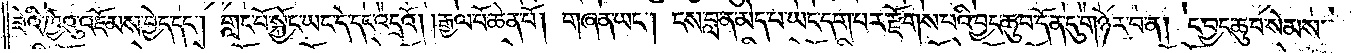ཟེའི་ཁྱེའུ་འཇོམས་བྱེད་དང༌། གླང་པོ་སྐྱོང་ཡང་དེ་དང་འདྲའོ། །རྒྱལ་པོ་ཆེན་པོ། གཞན་ཡང༌། ངས་བླ་ན་མེད་པ་ཡང་དག་པར་རྫོགས་པའི་བྱང་ཆུབ་དོན་དུ་གཉེར་བ་ན། ང་བྱང་ཆུབ་སེམས་
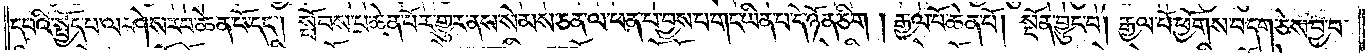དཔའི་སྤྱོད་པ་ལ་ཤེས་རབ་ཆེན་པོ་དང༌། སྤོབས་པ་ཆེན་པོར་གྱུར་ནས་སེམས་ཅན་ལ་ཕན་པ་བྱས་པ་གང་ཡིན་པ་དེ་ཉོན་ཅིག། རྒྱལ་པོ་ཆེན་པོ། སྔོན་བྱུང་བ། རྒྱལ་པོ་ཕྱོགས་བདག་ཅེས་བྱ་བ་
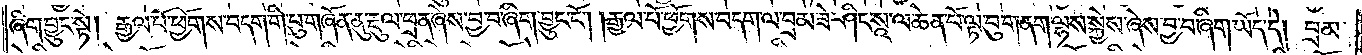ཞིག་བྱུང་སྟེ། རྒྱལ་པོ་ཕྱོགས་བདག་གི་པུ་གཞོན་ནུ་རྡུལ་ཕྲན་ཞེས་བྱ་བ་ཞིག་བྱུང་ངོ༌། །རྒྱལ་པོ་ཕྱོགས་བདག་ལ་བྲམ་ཟེ་ཤིང་སཱ་ལ་ཆེན་པོ་ལྟ་བུ་གནག་ལྷས་སྐྱེས་ཞེས་བྱ་བ་ཞིག་ཡོད་དེ། བྲམ་
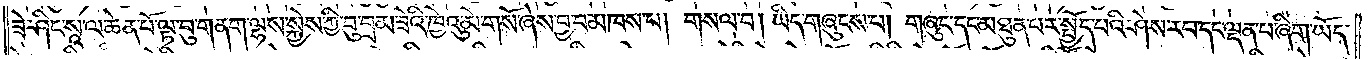ཟེ་ཤིང་སཱ་ལ་ཆེན་པོ་ལྟ་བུ་གནག་ལྷས་སྐྱེས་ཀྱི་བུ་བྲམ་ཟེའི་ཁྱེའུ་མེ་གསོ་ཞེས་བྱ་བ་མཁས་པ། གསལ་བ། ཡིད་གཞུངས་པ། གཞུང་དང་མཐུན་པར་སྤྱོད་པའི་ཤེས་རབ་དང་ལྡན་པ་ཞིག་ཡོད་
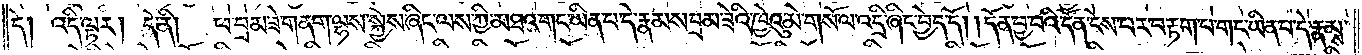དེ། འདི་ལྟར། དེ་ནི།  ཕ་བྲམ་ཟེ་གནག་ལྷས་སྐྱེས་ཞིང་ལས་ཀྱི་མཐའ་གང་ཡིན་པ་དེ་རྣམས་བྲམ་ཟེའི་ཁྱེའུ་མེ་གསོལ་འདྲི་ཞིང་བྱེད་དོ། །དོན་བྱ་བའི་དོན་ངེས་པར་བརྟག་པ་གང་ཡིན་པ་དེ་རྣམས་
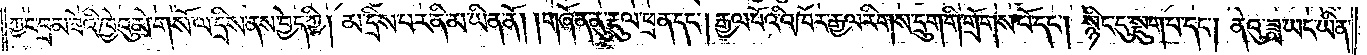ཀྱང་བྲམ་ཟེའི་ཁྱེའུ་མེ་གསོ་ལ་དྲིས་ནས་བྱེད་ཀྱི། མ་དྲིས་པར་ནི་མ་ཡིན་ནོ། །གཞོན་ནུ་རྡུལ་ཕྲན་དང༌། རྒྱལ་པོའི་འཁོར་རྒྱལ་རིགས་དྲུག་གི་གྲོངས་པོ་དང༌། སྙིང་དུ་སྡུག་པ་དང༌། ནེའུ་ཟླ་ཡང་ཡིན་
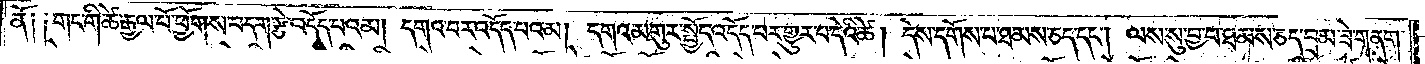ནོ༑ ༑གང་གི་ཚེ་རྒྱལ་པོ་ཕྱོགས་བདག་རྩེ་འདོད་པའམ། དགའ་བར་འདོད་པའམ། དགའ་མགུར་སྤྱོད་འདོད་པར་གྱུར་པ་དེའི་ཚེ། དེས་དགོས་པ་ཐམས་ཅད་དང༌། ལས་སུ་བྱ་བ་ཐམས་ཅད་བྲམ་ཟེ་གནག་
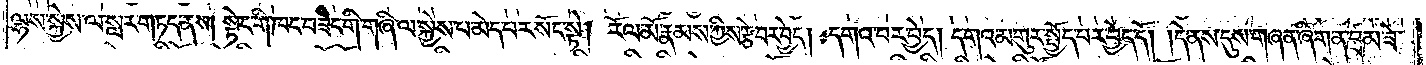ལྷས་སྐྱེས་ལ་སླར་གཏད་ནས། སྟེང་གི་ཁང་བཟང་གི་གཞི་ལ་སྐྱེས་པ་མེད་པར་སོང་སྟེ། རོལ་མོ་རྣམས་ཀྱིས་རྩེ་བར་བྱེད། དགའ་བར་བྱེད། དགའ་མགུར་སྤྱོད་པར་བྱེད་དོ། །དེ་ནས་དུས་གཞན་ཞིག་ན་བྲམ་ཟེ་
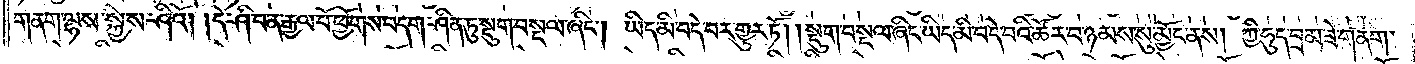གནག་ལྷས་སྐྱེས་ཤིའོ། །དེ་ཤི་བ་ན་རྒྱལ་པོ་ཕྱོགས་བདག་ཤིན་ཏུ་སྡུག་བསྔལ་ཞིང༌། ཡིད་མི་བདེ་བར་གྱུར་ཏོ། །སྡུག་བསྔལ་ཞིང་ཡིད་མི་བདེ་བའི་ཚོར་བ་ཉམས་སུ་མྱོང་ནས། ཀྱི་ཧུད་བྲམ་ཟེ་གནག་
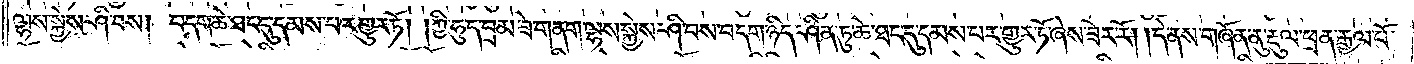ལྷས་སྐྱེས་ཤི་བས། བདག་ཆེ་ཐང་དུ་དམས་པར་གྱུར་ཏོ། །ཀྱི་ཧུད་བྲམ་ཟེ་གནག་ལྷས་སྐྱེས་ཤི་བས་བདག་ཉིད་ཤིན་ཏུ་ཆེ་ཐང་དུ་དམས་པར་གྱུར་ཏོ་ཞེས་ཟེར་རོ། །དེ་ནས་གཞོན་ནུ་རྡུལ་ཕྲན་རྒྱལ་པོ་
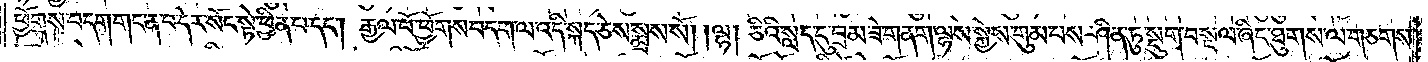ཕྱོགས་བདག་གང་ན་དེར་སོང་སྟེ་ཕྱིན་པ་དང༌། རྒྱལ་པོ་ཕྱོགས་བདག་ལ་འདི་སྐད་ཅེས་སྨྲས་སོ། །ལྷ། ཅིའི་སླད་དུ་བྲམ་ཟེ་གནག་ལྷས་སྐྱེས་གུམ་པས་ཤིན་ཏུ་སྡུག་བསྔལ་ཞིང་ཐུགས་ལ་གཅགས་
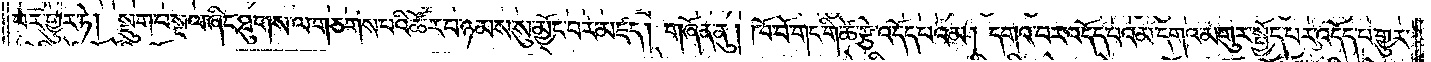པར་གྱུར་ཏེ། སྡུག་བསྔལ་ཞིང་ཐུགས་ལ་གཅགས་པའི་ཚོར་བ་ཉམས་སུ་མྱོང་བར་མཛད། གཞོན་ནུ། ཁོ་བོ་གང་གི་ཚེ་རྩེ་འདོད་པའམ། དགའ་བར་འདོད་པའམ་དགའ་མགུར་སྤྱོད་པར་འདོད་པ་གྱུར་
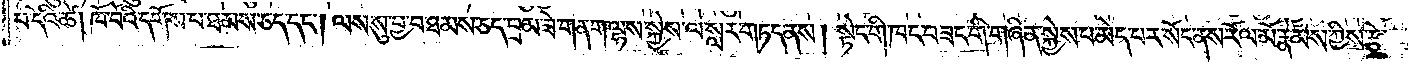པ་དེའི་ཚེ། ཁོ་བོའི་དགོས་པ་ཐམས་ཅད་དང༌། ལས་སུ་བྱ་བ་ཐམས་ཅད་བྲམ་ཟེ་གནག་ལྷས་སྐྱེས་ལ་སླར་གཏད་ནས། སྟེང་གི་ཁང་བཟང་གི་གཞི་ན་སྐྱེས་པ་མེད་པར་སོང་ནས་རོལ་མོ་རྣམས་ཀྱིས་རྩེ་
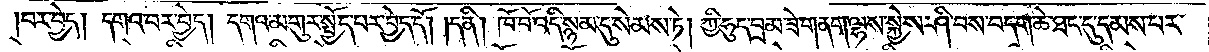བར་བྱེད། དགའ་བར་བྱེད། དགའ་མགུར་སྤྱོད་པར་བྱེད་དོ། །ད་ནི། ཁོ་བོ་འདི་སྙམ་དུ་སེམས་ཏེ། ཀྱི་ཧུད་བྲམ་ཟེ་གནག་ལྷས་སྐྱེས་ཤི་བས་བདག་ཆེ་ཐང་དུ་དམས་པར་
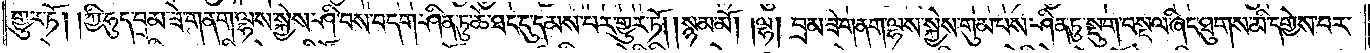གྱུར་ཏོ། །ཀྱི་ཧུད་བྲམ་ཟེ་གནག་ལྷས་སྐྱེས་ཤི་བས་བདག་ཤིན་ཏུ་ཆེ་ཐང་དུ་དམས་པར་གྱུར་ཏོ། །སྙམ་མོ། །ལྷ། བྲམ་ཟེ་གནག་ལྷས་སྐྱེས་གུམ་པས་ཤིན་ཏུ་སྡུག་བསྔལ་ཞིང་ཐུགས་མི་དགྱེས་པར་
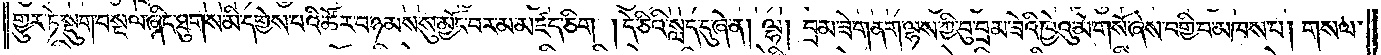གྱུར་ཏེ་སྡུག་བསྔལ་ཞིང་ཐུགས་མི་དགྱེས་པའི་ཚོར་བ་ཉམས་སུ་མྱོང་བར་མ་མཛད་ཅིག །དེ་ཅིའི་སླད་དུ་ཞེ་ན། ལྷ། བྲམ་ཟེ་གནག་ལྷས་ཀྱི་བུ་བྲམ་ཟེའི་ཁྱེའུ་མེ་གསོ་ཞེས་བགྱི་བ་མཁས་པ། གསལ་
